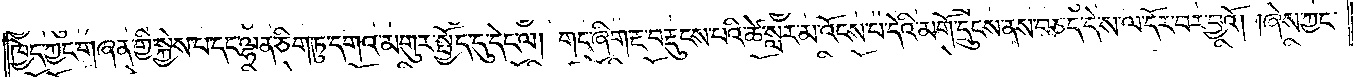ཁྱེད་ཀྱང་གཞན་གྱི་སྐྱེས་པ་དང་ལྷན་ཅིག་ཏུ་དགའ་མགུར་སྤྱོད་དུ་དེང་ལ། གང་ཞིག་རྔ་བརྡུངས་པའི་ཚེ་སླར་མ་འོངས་པ་དེའི་མགོ་དྲུངས་ནས་བཅད་དེ་ས་ལ་དོར་བར་བྱའོ། །ཞེས་ཀྱང་
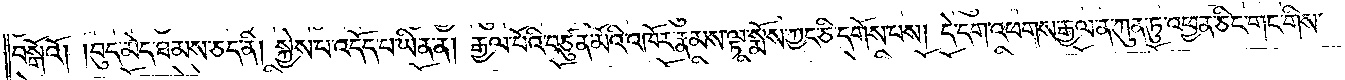བསྒོའོ། །བུད་མེད་ཐམས་ཅད་ནི། སྐྱེས་པ་འདོད་པ་ཡིན་ན། རྒྱལ་པོའི་བཙུན་མོའི་འཁོར་རྣམས་ལྟ་སྨོས་ཀྱང་ཅི་དགོས་པས། དེ་དག་འཕགས་རྒྱལ་ན་ཀུན་ཏུ་འཕྱན་ཅིང་གང་གིས་
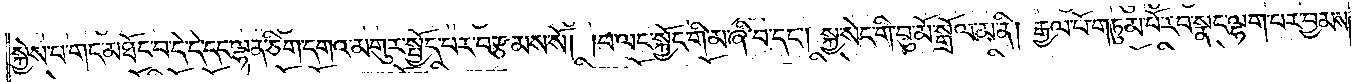སྐྱེས་པ་གང་མཐོང་བ་དེ་དེ་དང་ལྷན་ཅིག་དགའ་མགུར་སྤྱོད་པར་བརྩམས་སོ། །བ་ལང་སྐྱོང་གི་མ་ཞི་བ་དང༌། སྐྱ་སེང་གི་བུ་མོ་སྒྲོལ་མ་ནི། རྒྱལ་པོ་གཏུམ་པོ་རབ་སྣང་ལྷག་པར་བྱམས་
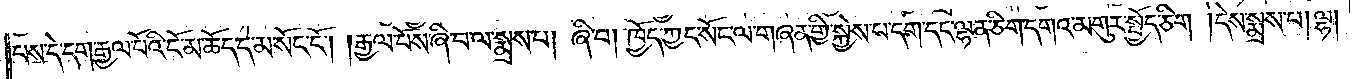པས་དེ་དག་རྒྱལ་པོའི་ངོ་མ་ཆོད་དེ་མ་སོང་ངོ༌། །རྒྱལ་པོས་ཞི་བ་ལ་སྨྲས་པ། ཞི་བ། ཁྱོད་ཀྱང་སོང་ལ་གཞན་གྱི་སྐྱེས་པ་དག་དང་ལྷན་ཅིག་དགའ་མགུར་སྤྱོད་ཅིག །དེས་སྨྲས་པ། ལྷ།
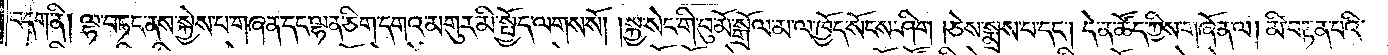བདག་ནི། ལྷ་བཏང་ནས་སྐྱེས་པ་གཞན་དང་ལྷན་ཅིག་དགའ་མགུར་མི་སྤྱོད་ལགས་སོ། །སྐྱ་སེང་གི་བུ་མོ་སྒྲོལ་མ་ལ་ཁྱོད་སོངས་ཤིག །ཅེས་སྨྲས་པ་དང༌། དེ་ན་ཚོད་ཀྱིས་གཞོན་ལ། མི་བརྟན་པའི་
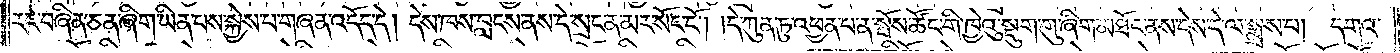རང་བཞིན་ཅན་ཞིག་ཡིན་པས་སྐྱེས་པ་གཞན་འདོད་དེ། དེས་ཁས་བླངས་ནས་དེ་སྲང་ན་མར་སོང་ངོ༌། །དེ་ཀུན་ཏུ་འཕྱན་པ་ན་སྤོས་ཚོང་གི་ཁྱེའུ་སྡུག་གུ་ཞིག་མཐོང་ནས་དེས་དེ་ལ་སྨྲས་པ། དགའ་
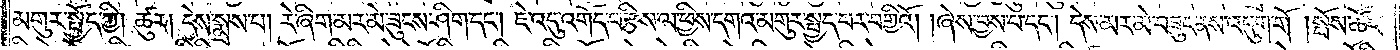མགུར་སྤྱོད་ཀྱི། ཚུར། དེས་སྨྲས་པ། རེ་ཞིག་མར་མེ་ཟུངས་ཤིག་དང༌། ཇེ་འདུ་འགོད་བརྩིས་ལ་ཕྱིས་དགའ་མགུར་སྤྱད་པར་བགྱིའོ། །ཞེས་བྱས་པ་དང༌། དེས་མར་མེ་བཟུང་ནས་འདུག་གོ །སྤོས་ཚོང་
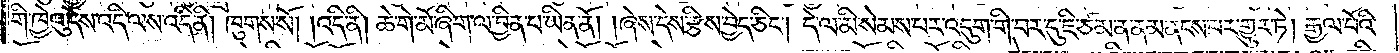གི་ཁྱེའུ་དེས་འདི་ལས་འདི་ནི། ཁུགས་སོ། །འདི་ནི། ཆེ་གེ་མོ་ཞིག་ལ་བྱིན་པ་ཡིན་ནོ། །ཞེས་དེས་རྩིས་བྱེད་ཅིང༌། དེ་ལ་མི་སེམས་པར་འདུག་གི་བར་དུ་ཇི་ཙམ་ན་ནམ་ནངས་པར་གྱུར་ཏེ། རྒྱལ་པོའི་
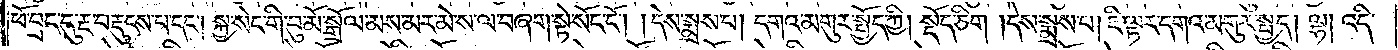ཕོ་བྲང་དུ་རྔ་བརྡུངས་པ་དང༌། སྐྱ་སེང་གི་བུ་མོ་སྒྲོལ་མས་མར་མེ་ས་ལ་བཞག་སྟེ་སོང་ངོ༌། །དེས་སྨྲས་པ། དགའ་མགུར་སྤྱོད་ཀྱི། སྡོད་ཅིག །དེས་སྨྲས་པ། ཇི་ལྟར་དགའ་མགུར་སྤྱད། ལྷ། འདི་
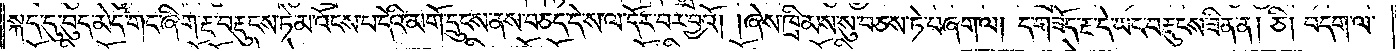སྐད་དུ་བུད་མེད་གང་ཞིག་རྔ་བརྡུངས་ཏེ་མ་འོངས་པ་དེའི་མགོ་དྲུངས་ནས་བཅད་དེ་ས་ལ་དོར་བར་བྱའོ། །ཞེས་ཁྲིམས་སུ་བཅས་ཏེ་བཞག་ལ། ད་གཟོད་རྔ་དེ་ཡང་བརྡུངས་ཟིན་ན། ཅི། བདག་ལ་
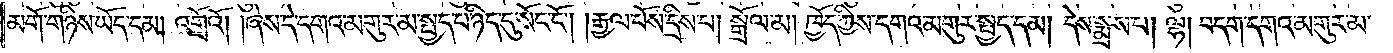མགོ་གཉིས་ཡོད་དམ། འགྲོའོ། །ཞེས་དེ་དགའ་མགུར་མ་སྤྱད་པ་ཉིད་དུ་སོང་ངོ༌། །རྒྱལ་པོས་དྲིས་པ། སྒྲོལ་མ། ཁྱོད་ཀྱིས་དགའ་མགུར་སྤྱད་དམ། དེས་སྨྲས་པ། ལྷ། བདག་དགའ་མགུར་མ་
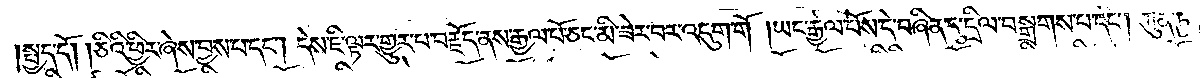སྤྱད་དོ། །ཅིའི་ཕྱིར་ཞེས་བྱས་པ་དང༌། དེས་ཇི་ལྟར་གྱུར་པ་བརྗོད་ནས་རྒྱལ་པོ་ཅང་མི་ཟེར་བར་འདུག་གོ །ཡང་རྒྱལ་པོས་དེ་བཞིན་དུ་དྲིལ་བསྒྲགས་པ་དང༌། ཀུན་ཏུ་
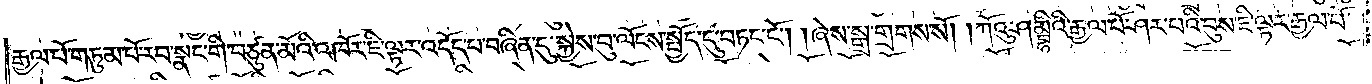རྒྱལ་པོ་གཏུམ་པོ་རབ་སྣང་གི་བཙུན་མོའི་འཁོར་ཇི་ལྟར་འདོད་པ་བཞིན་དུ་སྐྱེས་བུ་ལོངས་སྤྱོད་དུ་བཏང་ངོ༌། །ཞེས་སྒྲ་གྲགས་སོ། ཀོའུ་ཤམྦྷིའི་རྒྱལ་པོ་ཤར་པའི་བུས་ཇི་ལྟར་རྒྱལ་པོ་
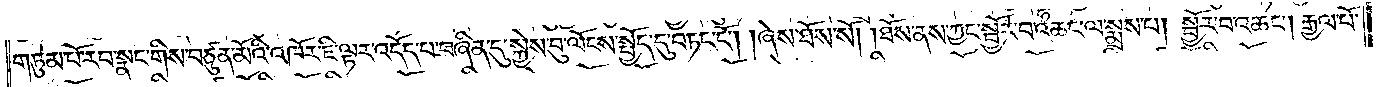གཏུམ་པོ་རབ་སྣང་གིས་བཙུན་མོའི་འཁོར་ཇི་ལྟར་འདོད་པ་བཞིན་དུ་སྐྱེས་བུ་ལོངས་སྤྱོད་དུ་བཏང་ངོ༌། །ཞེས་ཐོས་སོ། །ཐོས་ནས་ཀྱང་སྦྱོར་བ་འཆང་ལ་སྨྲས་པ། སྦྱོར་བ་འཆང༌། རྒྱལ་པོ་
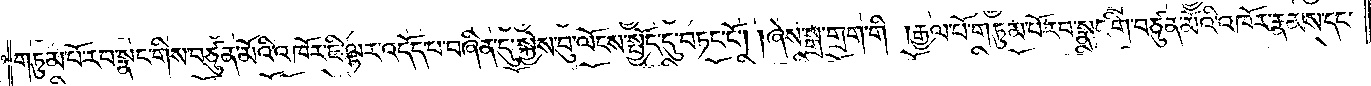གཏུམ་པོ་རབ་སྣང་གིས་བཙུན་མོའི་འཁོར་ཇི་ལྟར་འདོད་པ་བཞིན་དུ་སྐྱེས་བུ་ལོངས་སྤྱོད་དུ་བཏང་ངོ༌། །ཞེས་སྒྲ་གྲག་གི །རྒྱལ་པོ་གཏུམ་པོ་རབ་སྣང་གི་བཙུན་མོའི་འཁོར་རྣམས་དང་
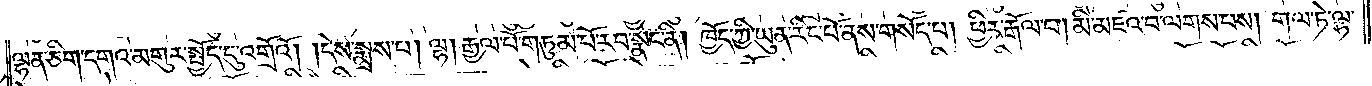ལྷན་ཅིག་དགའ་མགུར་སྤྱོད་དུ་འགྲོའོ། །དེས་སྨྲས་པ། ལྷ། རྒྱལ་པོ་གཏུམ་པོ་རབ་སྣང་ནི། ཁྱོད་ཀྱི་ཡུན་རིང་པོ་ནས་གསོད་པ། ཕྱིར་རྒོལ་བ། མི་མཛའ་བ་ལགས་པས། གལ་ཏེ་ལྷ་
